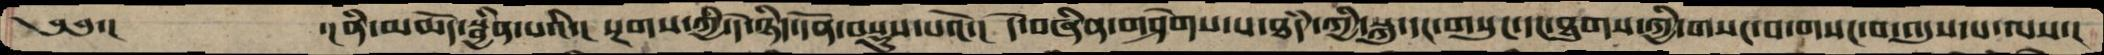༄༅་།        ་།ནི་མཆོད་སྦྱིན་པའི་།   སྔགས་ཀྱི་དེ་ཉིད་དོན་བསྡུས་པའོ་།  དེ་བཞིན་གཤེགས་པ་ཐཾད་ཀྱི་སྐུ་དང་གསུང་དང་ཐུགས་ཀྱི་གསང་བ་གསང་བ་འདུས་པ་ལས་།
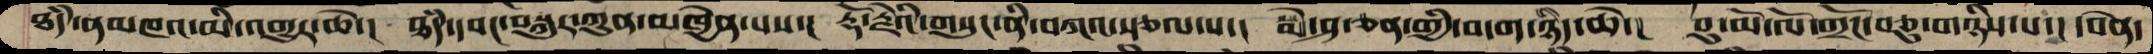ཐཾད་ནམ་མཁའ་མི་འགྱུར་ཆེ་།  ཐཾད་དབང་བསྐུར་ཀུན་མཁྱེན་པས་།  རྡོ་རྗེའི་གསུང་ནི་བཀའ་སྩལ་པ་།  སྨེ་ཤ་ཅན་གྱི་བདག་ཉིད་ཆེ་།  བུ་མོ་ལོ་གྲོང་བཅུ་གཉིས་པ་།  དབེན་
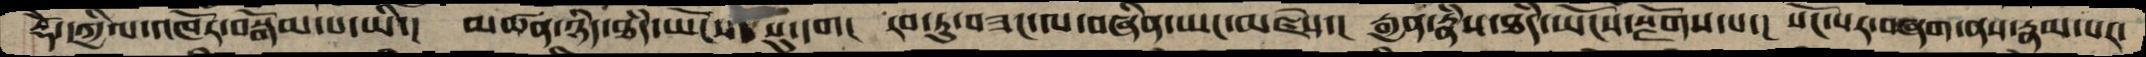རྡོེ་དཀྱིལ་འཁོར་བསྒོམ་པ་ཡི་།  མཚན་ཉིད་ཐཾད་ཡོངས་སུ་དག།  རབ་ཏུ་བཟང་ལ་བཞིན་ཡང་མཛེས་།  རྒྱན་རྣཾས་ཐཾད་ཡོངས་སྫོགས་པ་།  སོང་པར་བཞག་ནས་རྣམ་པར་
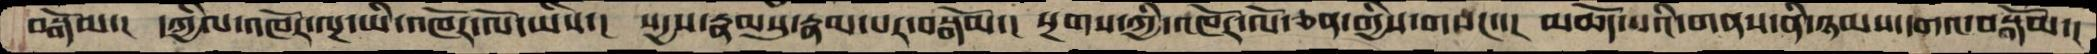བསྒོམ་།  དཀྱིལ་འཁོར་ལྔ་ཡི་འཁོར་ལོ་ཡིས་།  སདྱས་རྣམསུ་རྣམ་པར་བསྒོམ་།  སྔགས་ཀྱི་འཁོར་ལོ་ཅན་གྱིས་གསང་་།  མཆོད་པའི་གནས་ནི་ཉམས་དགའ་བསྒོམ་།
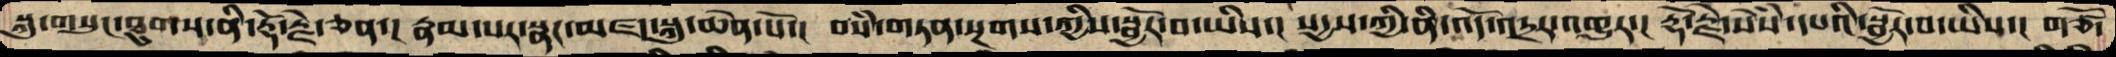སྐུ་གསུང་ཐུགས་ནི་རྡོ་རྗེ་ཅན་།  རྣམ་པར་སྣང་མཛད་སྐུ་ཆེན་པོ་།  བསཾ་གཏན་སྔགས་ཀྱིས་སྦྱོར་བ་ཡིས་།  སདྱས་ཀྱི་ནི་འོད་འདྲར་འགྱུར་།  རྡོ་རྗེ་སེཾས་དཔའི་སྦྱོར་བ་ཡིས་།  གཙོ་
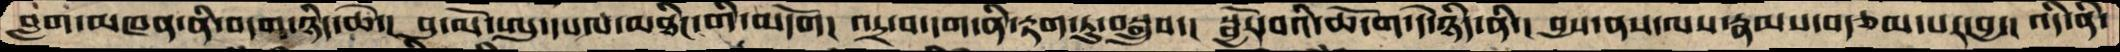བླག་མཁན་ནི་བདག་ཉིད་ཆེ་།  བུ་མོ་ཨུ་དཔལ་མཐིང་གི་མདོག།  འདྲ་བ་དག་ནི་རྟག་ཏུ་བསྒྲུབ་།  སྦྱོར་བའི་ཆོ་ག་དེ་ཉིད་ནི་།  བྱས་ནས་ལས་རྣམས་བརྩམ་པར་བྱ་།  འདི་ནི་
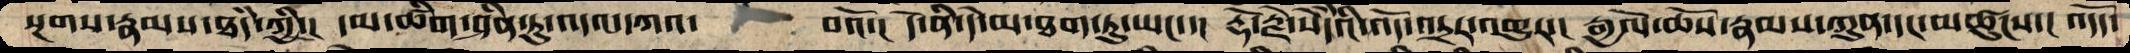སྔགས་རྣམས་ཐཾད་ཀྱི་།  དམ་ཚིག་ཤིན་ཏུ་འདས་དཀའ་  བའོ་།  དེ་ནི་དེ་མ་ཐག་ཏུ་ཡང་་།  རྡོ་རྗེ་སེདཾའི་འོད་འདྲར་འགྱུར་།  རྒྱལོ་ཆོས་རྣམས་ཀུན་དང་མཚུངས་།  འདོད་
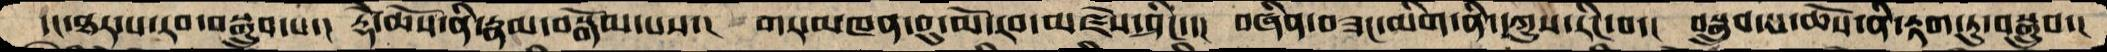དང་ཐར་པ་རབ་བསྒྲུབ་པ་།  རྡོེ་ཆོས་ནི་རྣམ་བསྒོམ་པས་།  གར་མཁན་བུ་མོ་རབ་མཛེས་ཤིང་་།  བཞིན་བཟང་མིག་ནི་དཀྱུས་རིང་བ་།  བསྒྲུབ་པ་ཆོས་ནི་རྟག་ཏུ་བསྒྲུབ་།
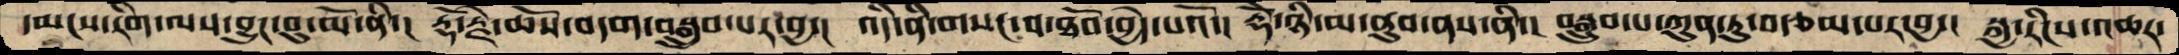དམངས་རིག་ལས་བྱུང་བུ་མོ་ནི་།  རྡོ་རྗེ་ཆོས་བདག་བསྒྲུབ་པར་བྱ་།  འདི་ནི་གསང་བ་ཐོབ་བྱེད་པའོ་།  རྡོེ་ཉི་མ་ནུབ་ནས་ནི་།  བསྒྲུབ་པ་ཀུན་ཏུ་བརྩམ་པར་བྱ་།  སྐྱ་རིངས་འཆར་
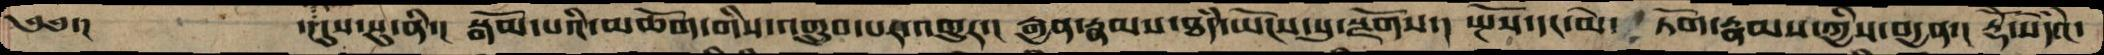༄༅་།       ་།དུས་སུ་ནི་།  སྒོམ་པའི་མཆོག་གིས་འགྲུབ་པར་འགྱུར་།  རྒྱན་རྣམས་ཐཾད་ཡོངས་སུ་སྫོགས་།  སྤོས་དང་མེ་  ཏོག་རྣམས་ཀྱིས་བདྱན་།  རྡོེ་སེདཾའ་
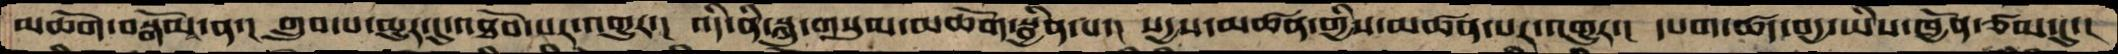མཆོག་བསྒོམ་ན་།  གྲུབ་པ་མྱུར་དུ་འཐོབ་པར་འགྱུར་།  འདི་ནི་སྐུ་གསུམ་མཆོག་སྦྱིན་པ་།  སདྱས་མཚན་གྱིས་མཚན་པར་འགྱུར་།  དཔག་ཚད་བདྱ་ཡིས་ཁྱོན་ཙམ་དུ་།
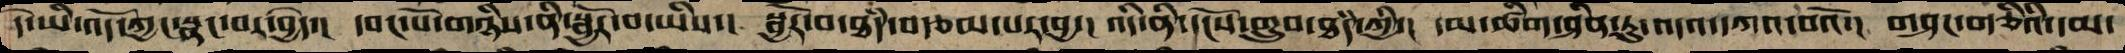དེ་ཡི་འོད་ཀྱང་སྣང་བར་བྱེད་།  དབང་པོ་གཉིས་ནི་སྦྱོར་བ་ཡིས་།  སྦྱོར་བ་ཐཾད་བརྩམ་པར་བྱ་།  འདི་ནི་དངོས་གྲུབ་ཐཾད་ཀྱི་།  དམ་ཚིག་ཤིན་ཏུ་འདའ་དཀའ་བའོ་།  གཤང་གཅིའི་དམ་
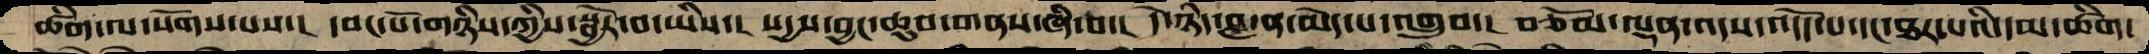ཚིག་ལ་སོགས་པས་།  དབང་པོ་གཉིས་ཀྱིས་སྦྱོར་བ་ཡིས་།  སདྱས་བྱང་ཆུབ་གནས་ཞི་བ་།  དེ་ཉིད་བླ་ན་མེད་པ་འགྲུབ་།   བཅོམ་ལྡན་འདས་འདོད་པ་དང་ཐར་པའི་དམ་ཚིག་
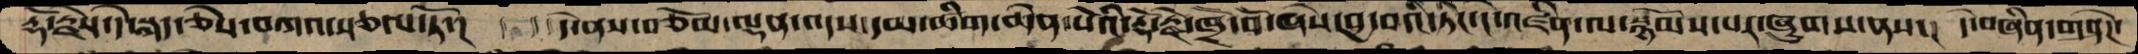རྡོ་རྗེས་དེ་སྐད་ཅེས་བཀའ་སྩལ་ཏོ་།  དེ་ནས་བཅོམ་ལྡན་འདས་དམ་ཚིག་ཆེན་པོའི་རྡོ་རྗེ་ཁྲོ་བོ་ཞེས་བྱ་བའི་ཏིང་ངེ་འཛིན་ལ་སྙོམས་པར་ཞུགས་ནས་།  དེ་བཞིན་གཤེཌ་
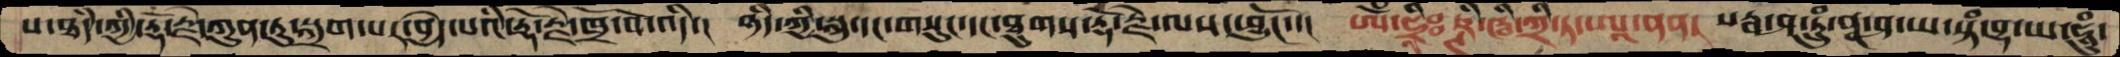པ་ཐཾད་ཀྱི་རྡོ་རྗེ་ཀུན་ཏུ་སྐྲག་པར་བྱེད་པའི་རྡོ་རྗེ་ཁྲོ་བོ་འདི་།  ཉིད་ཀྱི་སྐུ་དང་གསུང་དང་ཐུགས་རྡོ་རྗེ་ལས་ཕྱུངོ་་།  ཨོཾ་ཧྲཱིཿཥྚི་ཝི་ཀྲི་ཏ་ཨཱ་ནན།  སརྦ་ཤ་ཏྲུཾ་ནཱ་ཤ་ཡ་སྟཾ་བྷ་ཡ་ཧཱུཾ་
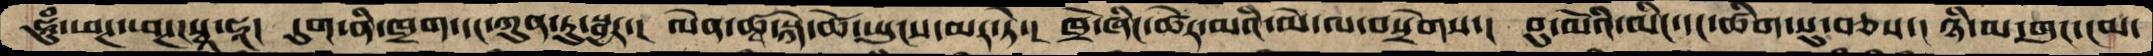ཧཱུཾ་ཕཊ་ཕཊ་སྭཱ་ཧཱ།   དུག་ནི་ཁྲག་དང་ཀུན་ཏུ་སྦྱར་།  ལེན་ཚྭ་སྐེ་ཚེ་ཡུངས་མར་ཏེ་།  ཁྲོ་ཞིང་ཚེར་མའི་མེ་ལ་བསྲེགས་།  བུ་མོའི་མིང་དང་ཚིགས་སུ་བཅས་།  ཉི་མ་གུང་ངམ་
